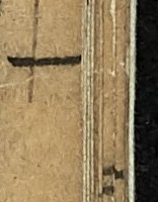一一
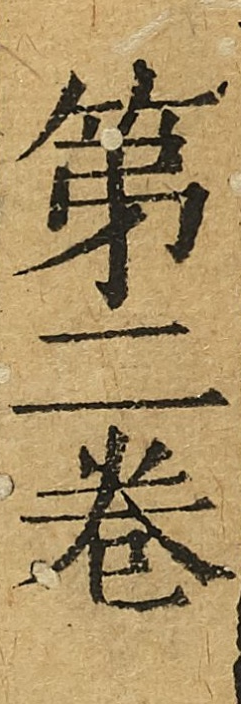第二卷
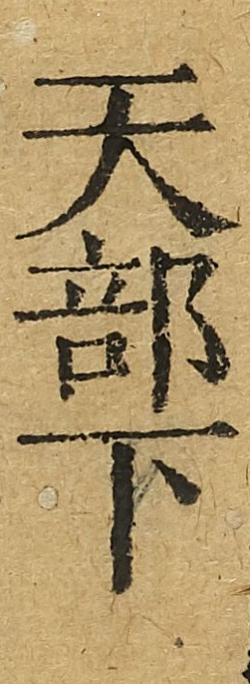天部下
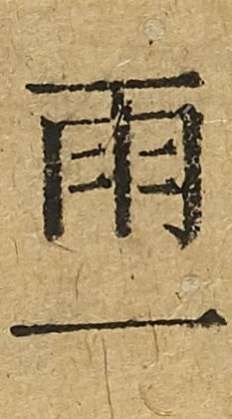雨一
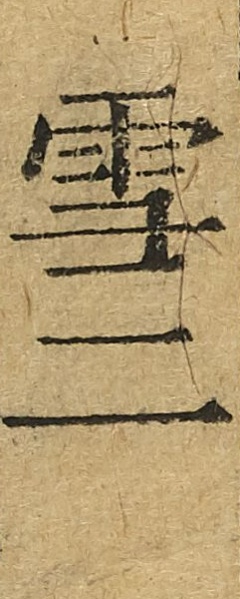雪二
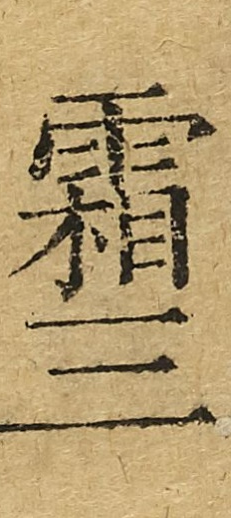霜三
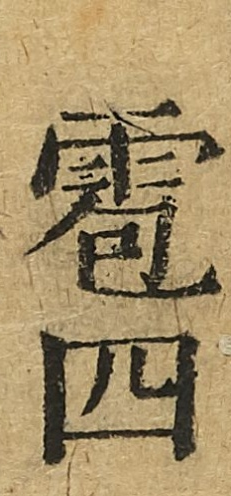雹四
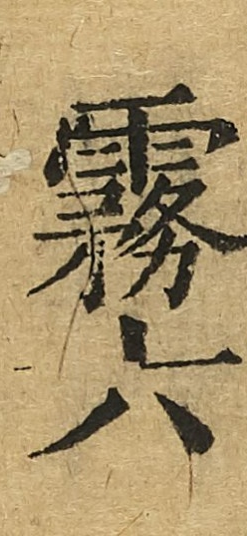霧水六
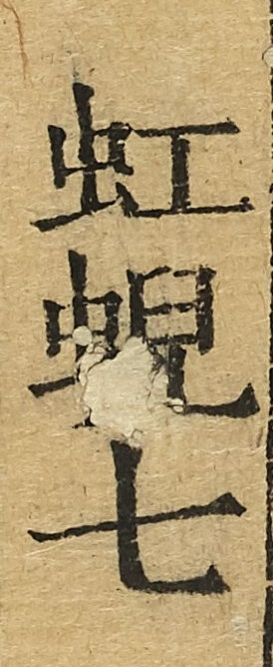虹霓七
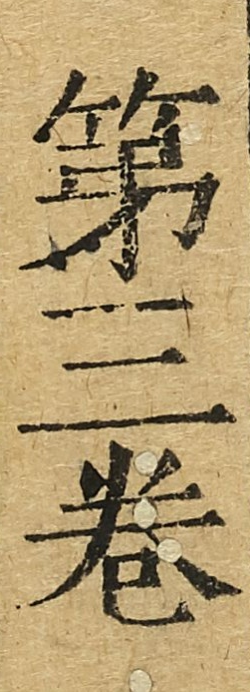第三卷
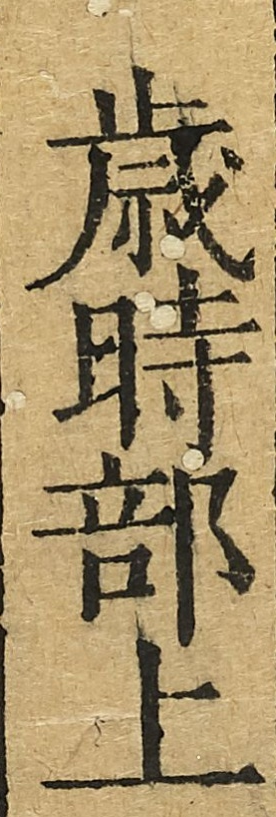歲時部上
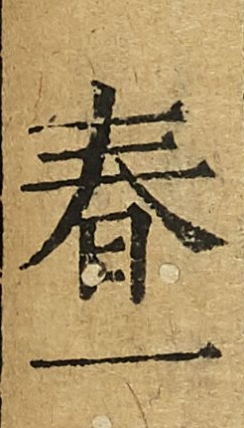春一
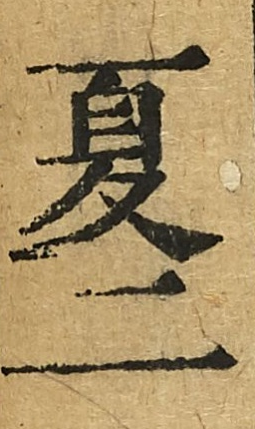夏二
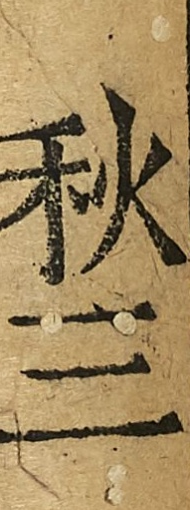秋山
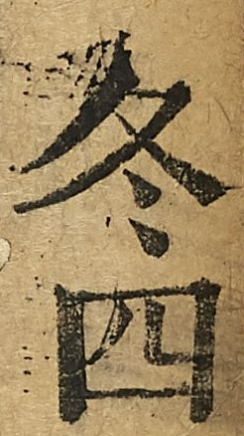冬四
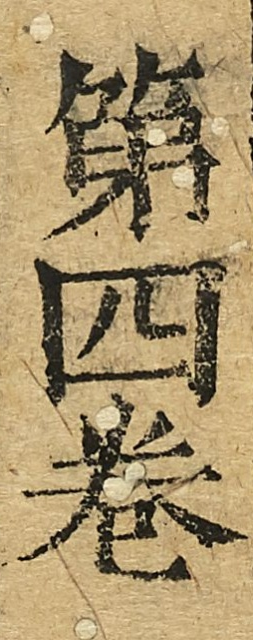第四卷
